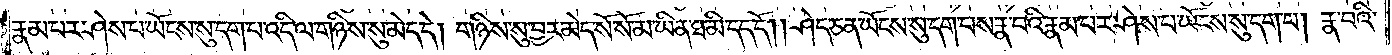རྣམ་པར་ཤེས་པ་ཡོངས་སུ་དག་པ་འདི་ལ་གཉིས་སུ་མེད་དེ། གཉིས་སུ་བྱར་མེད་སོ་སོ་མ་ཡིན་ཐ་མི་དད་དོ། །ཤེད་ཅན་ཡོངས་སུ་དག་པས་རྣ་བའི་རྣམ་པར་ཤེས་པ་ཡོངས་སུ་དག་པ། རྣ་བའི་
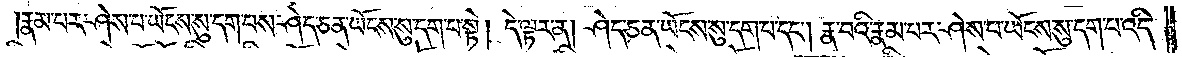རྣམ་པར་ཤེས་པ་ཡོངས་སུ་དག་པས་ཤེད་ཅན་ཡོངས་སུ་དག་པ་སྟེ། དེ་ལྟར་ན། ཤེད་ཅན་ཡོངས་སུ་དག་པ་དང༌། རྣ་བའི་རྣམ་པར་ཤེས་པ་ཡོངས་སུ་དག་པ་འདི་
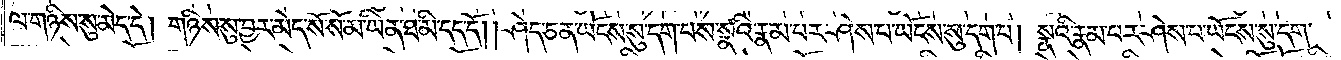ལ་གཉིས་སུ་མེད་དེ། གཉིས་སུ་བྱར་མེད་སོ་སོ་མ་ཡིན་ཐ་མི་དད་དོ། །ཤེད་ཅན་ཡོངས་སུ་དག་པས་སྣའི་རྣམ་པར་ཤེས་པ་ཡོངས་སུ་དག་པ། སྣའི་རྣམ་པར་ཤེས་པ་ཡོངས་སུ་དག་
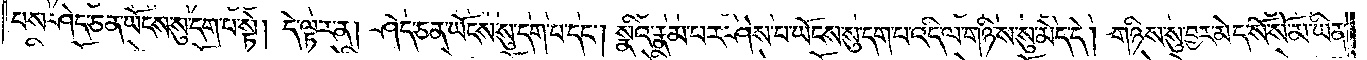པས་ཤེད་ཅན་ཡོངས་སུ་དག་པ་སྟེ། དེ་ལྟར་ན། ཤེད་ཅན་ཡོངས་སུ་དག་པ་དང༌། སྣའི་རྣམ་པར་ཤེས་པ་ཡོངས་སུ་དག་པ་འདི་ལ་གཉིས་སུ་མེད་དེ། གཉིས་སུ་བྱར་མེད་སོ་སོ་མ་ཡིན་
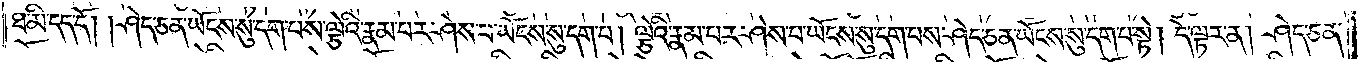ཐ་མི་དད་དོ། །ཤེད་ཅན་ཡོངས་སུ་དག་པས་ལྕེའི་རྣམ་པར་ཤེས་པ་ཡོངས་སུ་དག་པ། ལྕེའི་རྣམ་པར་ཤེས་པ་ཡོངས་སུ་དག་པས་ཤེད་ཅན་ཡོངས་སུ་དག་པ་སྟེ། དེ་ལྟར་ན། ཤེད་ཅན་
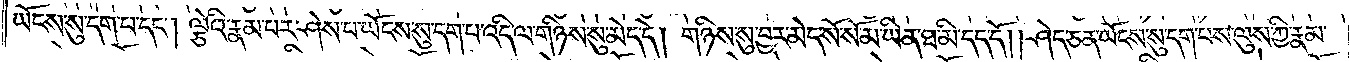ཡོངས་སུ་དག་པ་དང༌། ལྕེའི་རྣམ་པར་ཤེས་པ་ཡོངས་སུ་དག་པ་འདི་ལ་གཉིས་སུ་མེད་དེ། གཉིས་སུ་བྱར་མེད་སོ་སོ་མ་ཡིན་ཐ་མི་དད་དོ། །ཤེད་ཅན་ཡོངས་སུ་དག་པས་ལུས་ཀྱི་རྣམ་
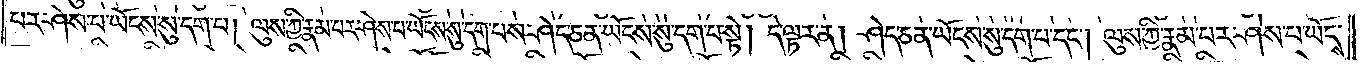པར་ཤེས་པ་ཡོངས་སུ་དག་པ། ལུས་ཀྱི་རྣམ་པར་ཤེས་པ་ཡོངས་སུ་དག་པས་ཤེད་ཅན་ཡོངས་སུ་དག་པ་སྟེ། དེ་ལྟར་ན། ཤེད་ཅན་ཡོངས་སུ་དག་པ་དང༌། ལུས་ཀྱི་རྣམ་པར་ཤེས་པ་ཡོངས་
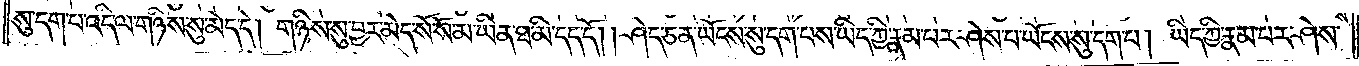སུ་དག་པ་འདི་ལ་གཉིས་སུ་མེད་དེ། གཉིས་སུ་བྱར་མེད་སོ་སོ་མ་ཡིན་ཐ་མི་དད་དོ། །ཤེད་ཅན་ཡོངས་སུ་དག་པས་ཡིད་ཀྱི་རྣམ་པར་ཤེས་པ་ཡོངས་སུ་དག་པ། ཡིད་ཀྱི་རྣམ་པར་ཤེས་
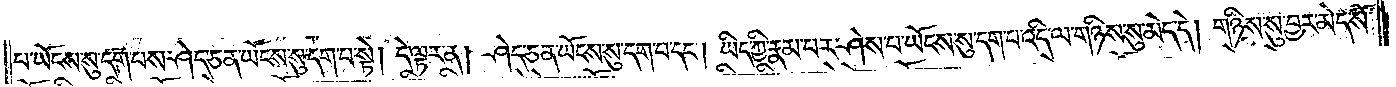པ་ཡོངས་སུ་དག་པས་ཤེད་ཅན་ཡོངས་སུ་དག་པ་སྟེ། དེ་ལྟར་ན། ཤེད་ཅན་ཡོངས་སུ་དག་པ་དང༌། ཡིད་ཀྱི་རྣམ་པར་ཤེས་པ་ཡོངས་སུ་དག་པ་འདི་ལ་གཉིས་སུ་མེད་དེ། གཉིས་སུ་བྱར་མེད་སོ་
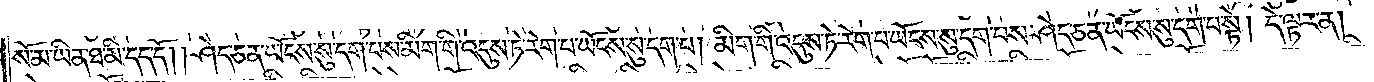སོ་མ་ཡིན་ཐ་མི་དད་དོ། །ཤེད་ཅན་ཡོངས་སུ་དག་པས་མིག་གི་འདུས་ཏེ་རེག་པ་ཡོངས་སུ་དག་པ། མིག་གི་འདུས་ཏེ་རེག་པ་ཡོངས་སུ་དག་པས་ཤེད་ཅན་ཡོངས་སུ་དག་པ་སྟེ། དེ་ལྟར་ན།
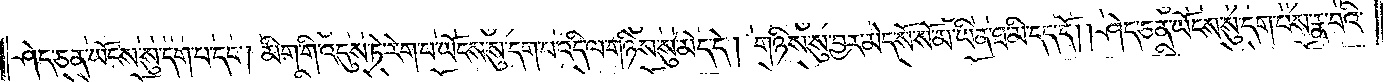ཤེད་ཅན་ཡོངས་སུ་དག་པ་དང༌། མིག་གི་འདུས་ཏེ་རེག་པ་ཡོངས་སུ་དག་པ་འདི་ལ་གཉིས་སུ་མེད་དེ། གཉིས་སུ་བྱར་མེད་སོ་སོ་མ་ཡིན་ཐ་མི་དད་དོ། །ཤེད་ཅན་ཡོངས་སུ་དག་པས་རྣ་བའི་
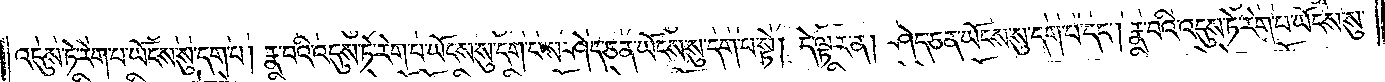འདུས་ཏེ་རེག་པ་ཡོངས་སུ་དག་པ། རྣ་བའི་འདུས་ཏེ་རེག་པ་ཡོངས་སུ་དག་པས་ཤེད་ཅན་ཡོངས་སུ་དག་པ་སྟེ། དེ་ལྟར་ན། ཤེད་ཅན་ཡོངས་སུ་དག་པ་དང༌། རྣ་བའི་འདུས་ཏེ་རེག་པ་ཡོངས་སུ་
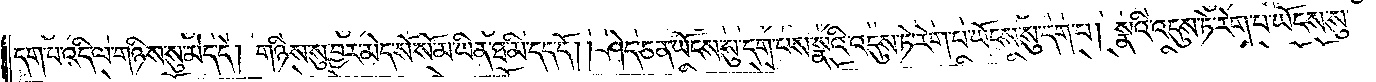དག་པ་འདི་ལ་གཉིས་སུ་མེད་དེ། གཉིས་སུ་བྱར་མེད་སོ་སོ་མ་ཡིན་ཐ་མི་དད་དོ། །ཤེད་ཅན་ཡོངས་སུ་དག་པས་སྣའི་འདུས་ཏེ་རེག་པ་ཡོངས་སུ་དག་པ། སྣའི་འདུས་ཏེ་རེག་པ་ཡོངས་སུ་
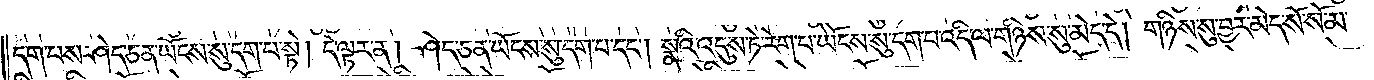དག་པས་ཤེད་ཅན་ཡོངས་སུ་དག་པ་སྟེ། དེ་ལྟར་ན། ཤེད་ཅན་ཡོངས་སུ་དག་པ་དང༌། སྣའི་འདུས་ཏེ་རེག་པ་ཡོངས་སུ་དག་པ་འདི་ལ་གཉིས་སུ་མེད་དེ། གཉིས་སུ་བྱར་མེད་སོ་སོ་མ་
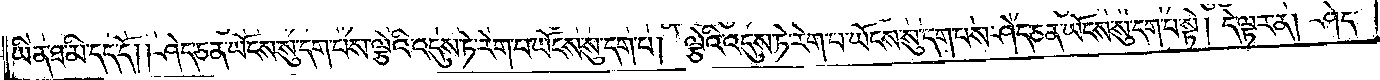ཡིན་ཐ་མི་དད་དོ། །ཤེད་ཅན་ཡོངས་སུ་དག་པས་ལྕེའི་འདུས་ཏེ་རེག་པ་ཡོངས་སུ་དག་པ། ལྕེའི་འདུས་ཏེ་རེག་པ་ཡོངས་སུ་དག་པས་ཤེད་ཅན་ཡོངས་སུ་དག་པ་སྟེ། དེ་ལྟར་ན། ཤེད་
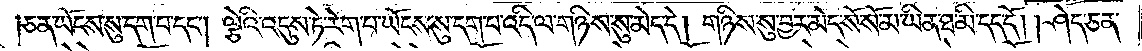ཅན་ཡོངས་སུ་དག་པ་དང༌། ལྕེའི་འདུས་ཏེ་རེག་པ་ཡོངས་སུ་དག་པ་འདི་ལ་གཉིས་སུ་མེད་དེ། གཉིས་སུ་བྱར་མེད་སོ་སོ་མ་ཡིན་ཐ་མི་དད་དོ། །ཤེད་ཅན་
